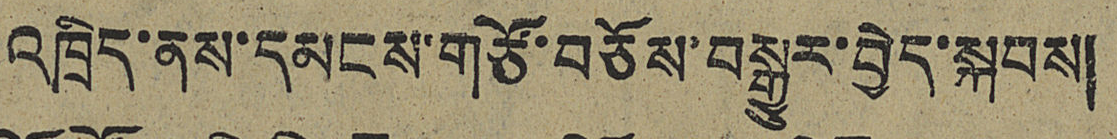འཁྲིད་ནས་དམངས་གཙོ་བཅོས་བསྒྱུར་བྱེད་སྐབས།
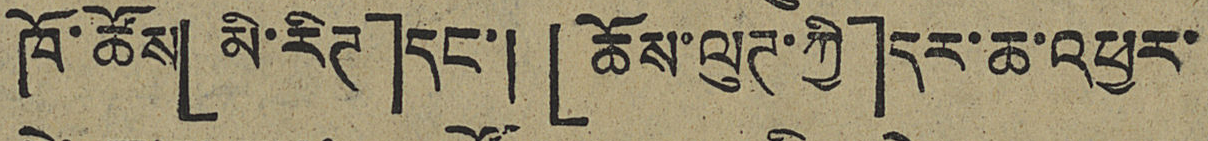ཁོ་ཚོས「མི་རིཊ」དང་།「ཆོས་ལུཊ་ཀྱི」དར་ཆ་འཕྱར་
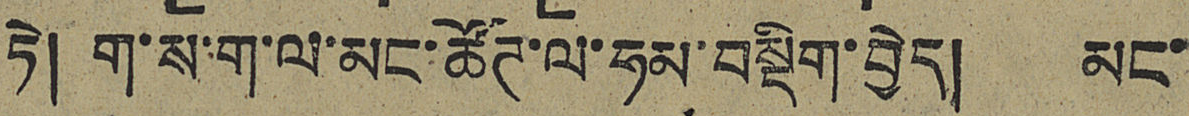ཏེ། ག་ས་ག་ལ་མང་ཚོཊ་ལ་ཧམ་བསྡིག་བྱེད། མང་
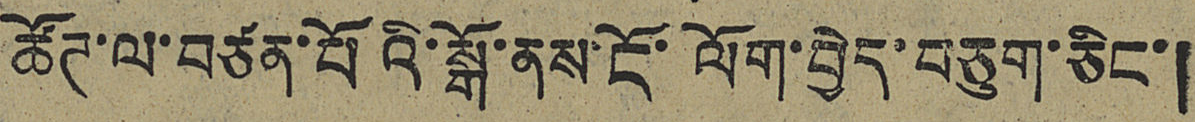ཚོཊ་ལ་བཙན་པོའི་སྒོ་ནས་ངོ་ལོག་བྱེད་བཅུག་ཅིང་།
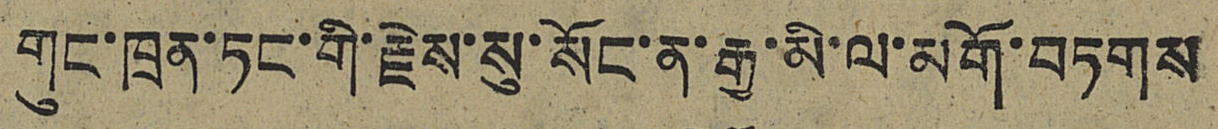གུང་ཁྲན་ཏང་གི་རྗེས་སུ་སོང་ན་རྒྱ་མི་ལ་མགོ་བཏགས
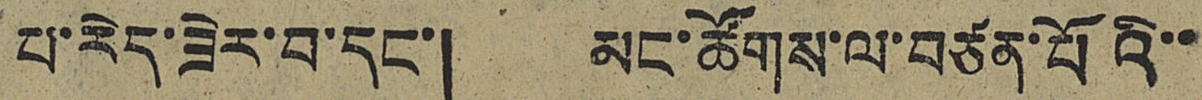པ་རེད་ཟེར་བ་དང་། མང་ཚོགས་ལ་བཙན་པོའི་་
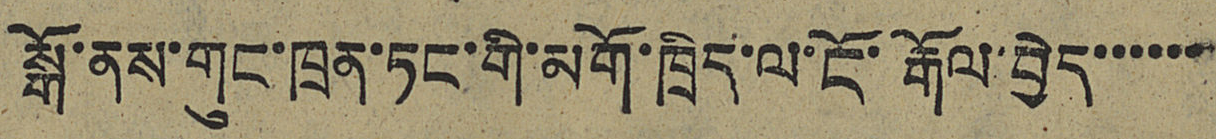སྒོ་ནས་གུང་ཁྲན་ཏང་གི་མགོ་ཁྲིད་ལ་ངོ་རྒོལ་བྱེད་་་་་་
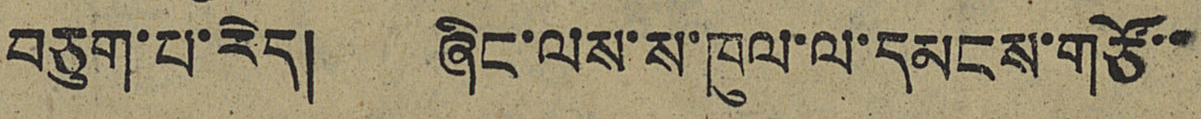བཅུག་པ་རེད། ཞིང་ལས་ས་ཁུལ་ལ་དམངས་གཙོ་་
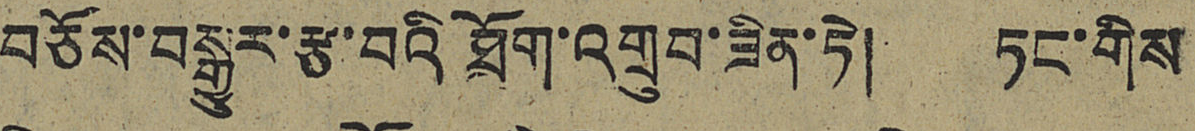བཅོས་བསྒྱུར་རྩ་བའི ཐོག་འགྲུབ་ཟིན་ཏེ། ཏང་གིས
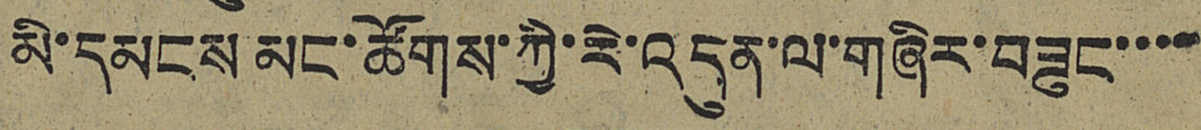མི་དམངས མང་ཚོགས་ཀྱི་རེ་འདུན་ལ་གཞིར་བཟུང་་་་
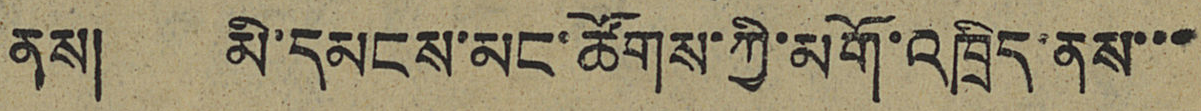ནས། མི་དམངས་མང་ཚོགས་ཀྱི་མགོ་འཁྲིད་ནས་་་
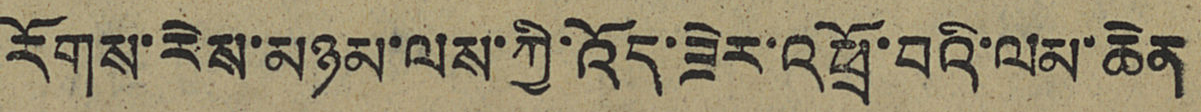རོགས་རེས་མཉམ་ལས་ཀྱི་འོད་ཟེར་འཕྲོ་བའི་ལམ་ཆེན
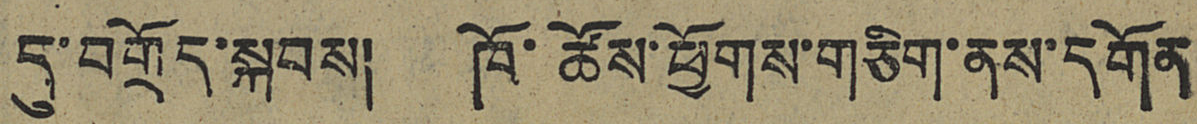དུ་བགྲོད་སྐབས། ཁོ་ཚོས་ཕྱོགས་གཅིག་ནས་དགོན
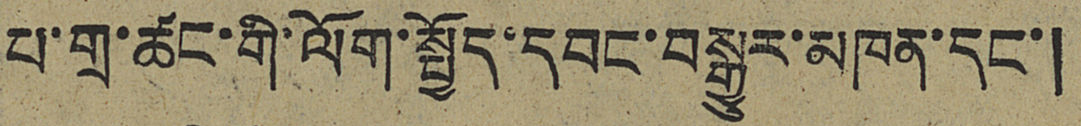པ་གྲ་ཚང་གི་ལོག་སྤྱོད་དབང་བསྒྱུར་མཁན་དང་།
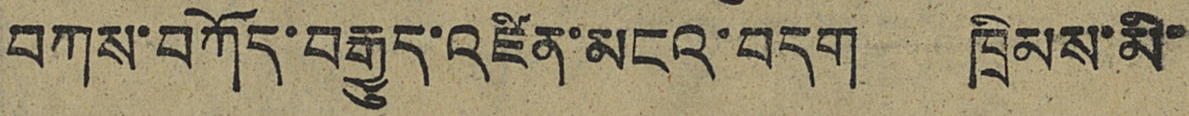བཀས་བཀོད་བརྒྱུད་འཛིན་མངའ་བདག ཁྲིམས་མི་
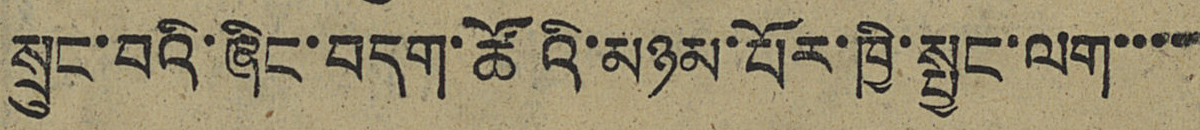སྲུང་བའི་ཞིང་བདག་ཚོའི་མཉམ་པོར་ཁྱི་སྤྱང་ལག་་་་
